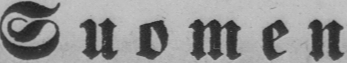Suomen
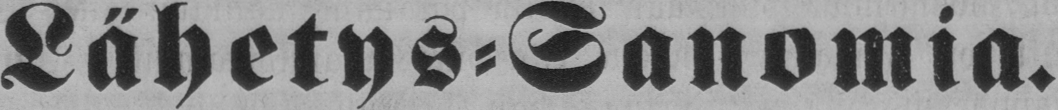Lähetys-Sanomia.
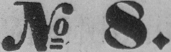№ 8.
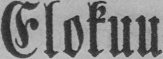Elokuu
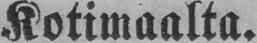Kotimaalta.
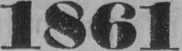1861.
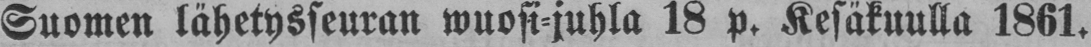Suomen lähetysseuran wuosi-juhla 18 p. Kesäkuulla 1861.
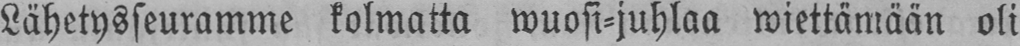Lähetysseuramme kolmatta wuosi-juhlaa wiettämään oli
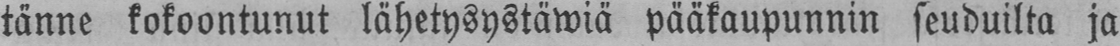tänne kokoontunut lähetysystäwiä pääkaupunnin seuduilta ja
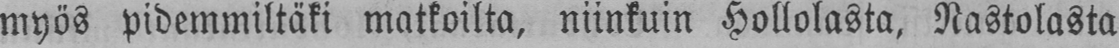myös pidemmiltäki matkoilta, niinkuin Hollolasta, Nastolasta
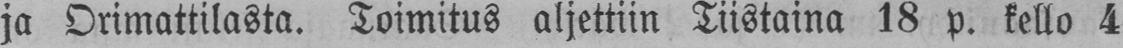ja Orimattilasta. Toimitus aljettiin Tiistaina 18 p. kello 4
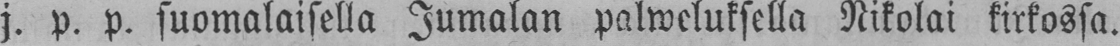j. p. p. suomalaisella Jumalan palweluksella Nikolai kirkossa.
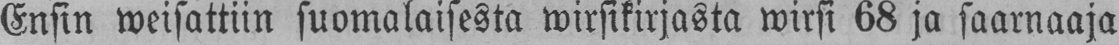Ensin weisattiin suomalaisesta wirsikirjasta wirsi 68 ja saarnaaja
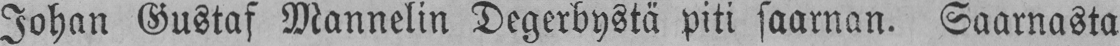Johan Gustaf Mannelin Degerbystä piti saarnan. Saarnasta
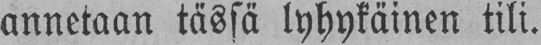annetaan tässä lyhykäinen tili.
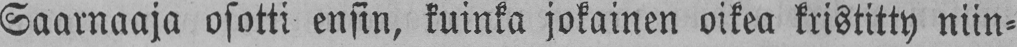Saarnaaja osotti ensin, kuinka jokainen oikea kristitty niin-
